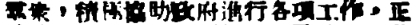羣衆，積極協助政府進行各項工作，正
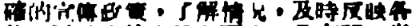確的宣傳政策，了解情況，即使反映各
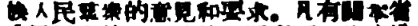族人民羣衆的意見和要求。凡有關本省
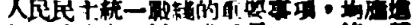人民民主統一戰綫的重要事項，均應進
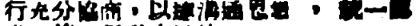行充分協商，以達溝通思想 ，統一認
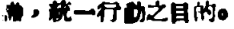識，統一行動之目的。
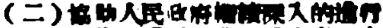（二）協助人民政府繼續深入的進行
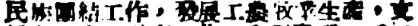民族團結工作，發展工農牧業生產，支
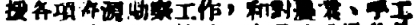援各項資源勘察工作，和對農業、手工
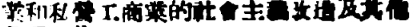業和私營工商業的社會主義改造及其他
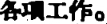各項工作。
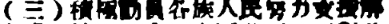（三）積極動員各族人民努力支援解
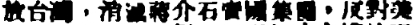放台灣，消滅蔣介石賣國集團，反對美
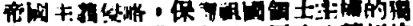帝國主義侵略，保衛祖國領土主權的獨
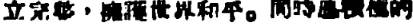立完整，擁護世界和平。同時應積極的
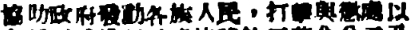協助政府發動各族人民，打擊與懲處以
